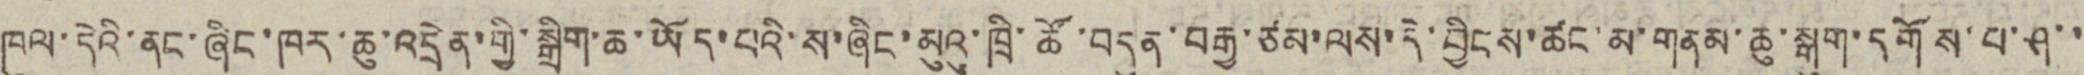ཁུལ་དེའི་ནང་ཞིང་ཁར་ཆུ་འདྲེན་གྱི་སྒྲིག་ཆ་ཡོད་པའི་ས་ཞིང་མུའུ་ཁྲི་ཚོ་བདུན་བརྒྱ་ཙམ་ལས་དེ་བྱིངས་ཚང་མ་གནམ་ཆུ་སྒུག་དགོས་པ་ཤ་་
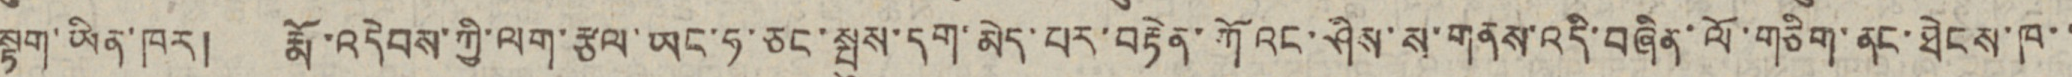སྟག་ཡིན་ཁར། རྨོ་འདེབས་ཀྱི་ལག་རྩལ་ཡང་ཧ་ཅང་སྤུས་དག་མེད་པར་བརྟེན་ཀོའང་ཤིས་ས་གནས་འདི་བཞིན་ལོ་གཅིག་ནང་ཐེངས་ཁ་་
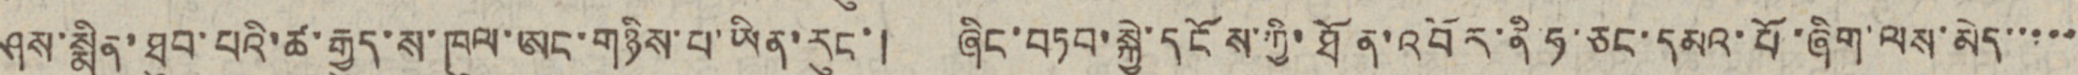ཤས་སྨིན་ཐུབ་པའི་ཚ་རྒྱུད་ས་ཁུལ་ཨང་གཉིས་པ་ཡིན་རུང་། ཞིང་བཏབ་སྐྱེ་དངོས་ཀྱི་ཐོན་འབོར་ནི་ཧ་ཅང་དམའ་པོ་ཞིག་ལས་མེད་་་་་
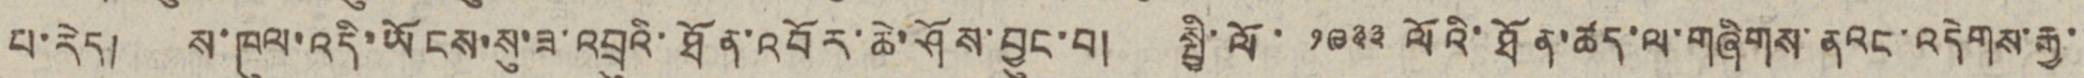པ་རེད། ས་ཁུལ་འདི་ཡོངས་སུ་ཟ་འབྲུའི་ཐོན་འབོར་ཆེ་ཤོས་བྱུང་བ། སྤྱི་ལོ་ ༡༩༣༣ ལོའི་ཐོན་ཚད་ལ་གཞིགས་ནའང་འདེགས་རྒྱ་་
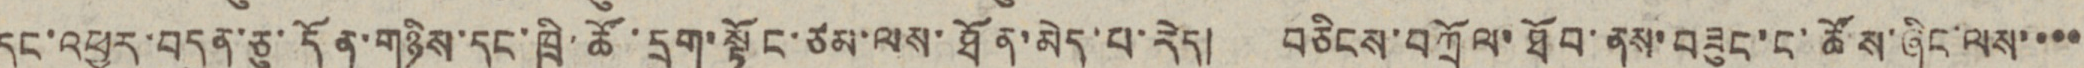དུང་འཕྱུར་བདུན་ཅུ་དོན་གཉིས་དང་ཁྲི་ཚོ་དྲུག་སྟོང་ཙམ་ལས་ཐོན་མེད་པ་རེད། བཅིངས་བཀྲོལ་ཐོབ་ནས་བཟུང་ང་ཚོས་ཞིང་ལས་་་་
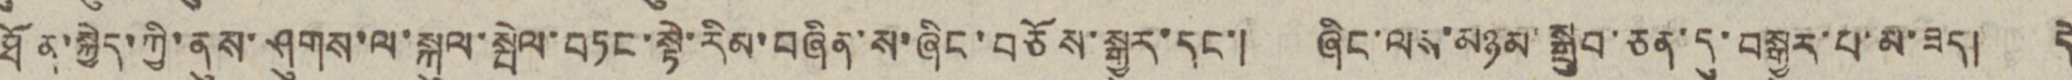ཐོན་སྐྱེད་ཀྱི་ནུས་ཤུགས་ལ་སྐུལ་སྦེལ་བཏང་སྟེ་རིམ་བཞིན་ས་ཞིང་བཅོས་སྒྱུར་དང་། ཞིང་ལས་མཉམ་སྒྲུབ་ཅན་དུ་བསྒྱུར་པ་མ་ཟད། དེ
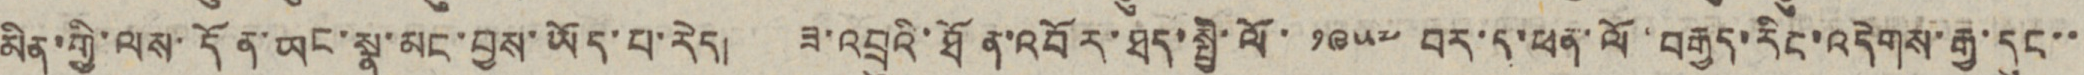མིན་གྱི་ལས་དོན་ཡང་སྣ་མང་བྱས་ཡོད་པ་རེད། ཟ་འབྲུའི་ཐོན་འབོར་ཐད་སྤྱི་ལོ་ ༡༩༥༧ བར་ད་ཕན་ལོ་བརྒྱད་རིང་འདེགས་རྒྱ་དུང་་
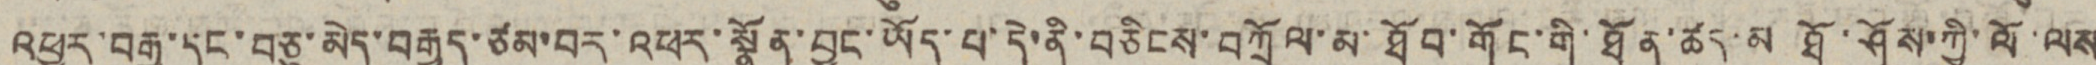འཕྱུར་བརྒྱ་དང་བཅུ་མེད་བརྒྱད་ཙམ་བར་འཕར་སྣོན་བྱུང་ཡོད་པ་དེ་ནི་བཅིངས་བཀྲོལ་མ་ཐོབ་གོང་གི་ཐོན་ཚད་མ ཐོ་ཤོས་ཀྱི་ལོ་ལས
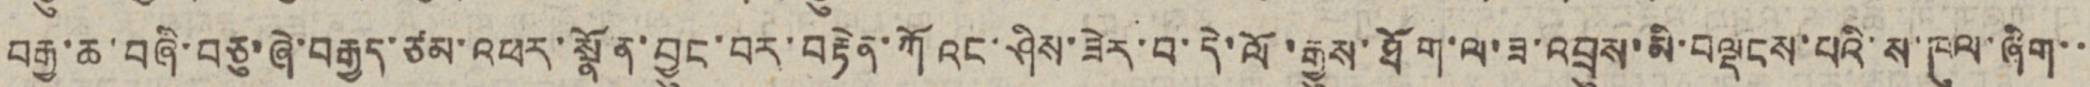བརྒྱ་ཆ་བཞི་བཅུ་ཞེ་བརྒྱད་ཙམ་འཕར་སྣོན་བྱུང་བར་བརྟེན་ཀོའང་ཤིས་ཟེར་བ་དེ་ལོ་རྒྱུས་ཐོག་ལ་ཟ་འབྲུས་མི་བལྡངས་པའི་ས་ཁུལ་ཞིག་་
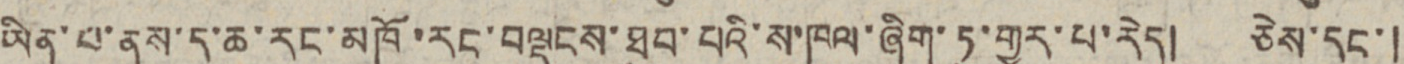ཡིན་པ་ནས་ད་ཆ་རང་མཁོ་རང་བལྡངས་ཐུབ་པའི་ས་ཁུལ་ཞིག་ཏུ་གྱུར་པ་རེད། ཅེས་དང་།
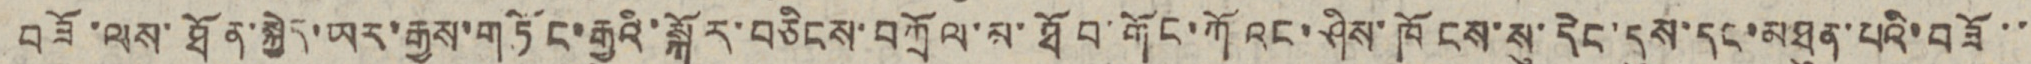བཟོ་ལས་ཐོན་སྐྱེད་ཡར་རྒྱས་གཏོང་རྒྱུའི་སྐོར་བཅིངས་བཀྲོལ་མ་ཐོབ་གོང་ཀོའང་ཤིས་ཁོངས་སུ་དེང་དུས་དང་མཐུན་པའི་བཟོ་་
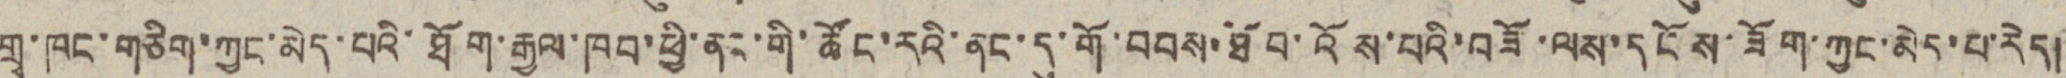གྲྭ་ཁང་གཅིག་ཀྱང་མེད་པའི་ཐོག་རྒྱལ་ཁབ་ཕྱི་ནང་གི་ཚོང་རའི་ནང་དུ་གོ་བབས་ཐོབ་འོས་པའི་བཟོ་ལས་དངོས་ཟོག་ཀྱང་མེད་པ་རེད།
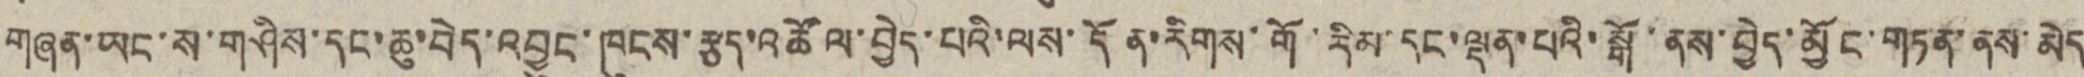གཞན་ཡང་ས་གཤིས་དང་ཆུ་བེད་འབྱུང་ཁུངས་རྩད་འཚོལ་བྱེད་པའི་ལས་དོན་རིགས་གོ་རིམ་དང་ལྡན་པའི་སྒོ་ནས་བྱེད་མྱོང་གཏན་ནས་མེད
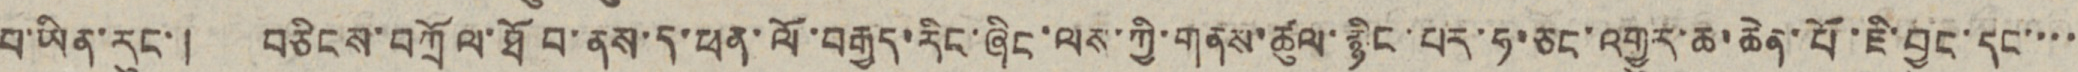པ་ཡིན་རུང་། བཅིངས་བཀྲོལ་ཐོབ་ནས་ད་ཕན་ལོ་བརྒྱད་རིང་ཞིང་ལས་ཀྱི་གནས་ཚུལ་རྙིང་པར་ཧ་ཅང་འགྱུར་ཆ་ཆེན་པོ་ཇི་བྱུང་དང་་་་
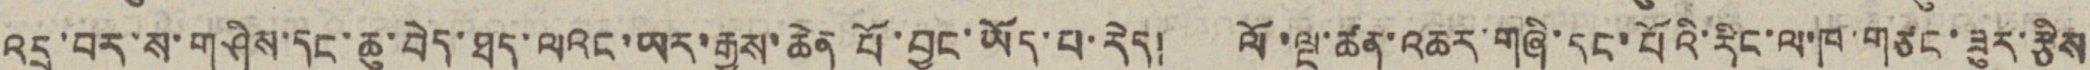འདྲ་བར་ས་གཤིས་དང་ཆུ་བེད་ཐད་ལའང་ཡར་རྒྱས་ཆེན པོ་བྱུང་ཡོད་པ་རེད། ལོ་ལྔ་ཚན་འཆར་གཞི་དང་པོའི་རིང་ལ་ཁ་གཙང་ཟུར་རྩིས
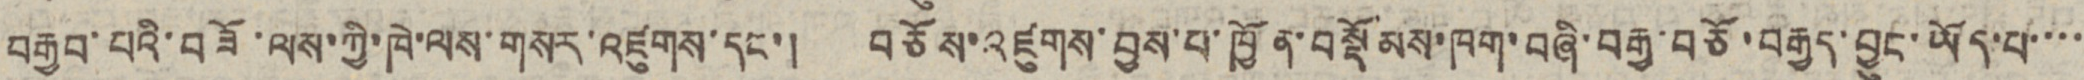བརྒྱབ་པའི་བཟོ་ལས་ཀྱི་ཁེ་ལས་གསར་འཛུགས་དང་། བཅོས་འཛུགས་བྱས་པ་ཁྱོན་བསྡོམས་ཁག་བཞི་བརྒྱ་བཅོ་བརྒྱད་བྱུང་ཡོད་པ་་་་
